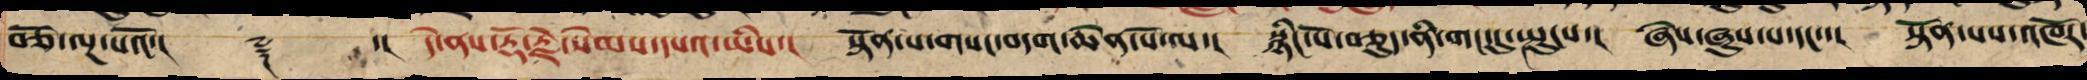བཅོ་ལྔ་པའོ་།། ༈ ་།། དེ་ནས་རྡོ་རྗེ་སེམས་དཔའ་ཡིས་། སྟོན་པ་གསང་བདག་ཆེན་པོ་ལ་། སྙིང་པོ་བཅུད་ནི་གང་དུ་སྤུངས་། ཞེས་ཞུས་པ་དང་་། སྟོན་པས་འཁོར
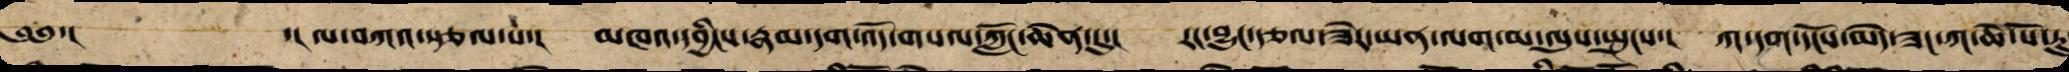༄༅་།   ་།ལ་བཀའ་སྩལ་པ་། མཁའ་དབྱིངས་རྣམ་དག་འོད་གསལ་ཀློང་ཆེན་དུ་། རང་བྱུང་རྩལ་ཟེར་ཡན་ལག་མ་ལུས་སྤུངས་། ཀ་དག་དངོས་མེད་ཟང་ཀ་ཆེན་པོ་རུ
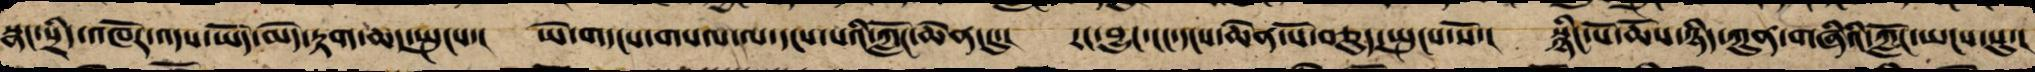སྣང་སྲིད་འཁོར་འདས་ཡོད་མེད་རྟག་ཆད་སྤུངས་། ཡེ་གདངས་གསལ་ལ་དངས་པའི་ཀློང་ཆེན་དུ་། རང་བྱུང་ངང་དངས་ཆེན་པོར་བཅུད་སྤུངས་སོ་། སྙིང་པོ་ཆོས་ཉིད་ཀུན་གཞིའི་ཀློང་ཡངས་སུ་།
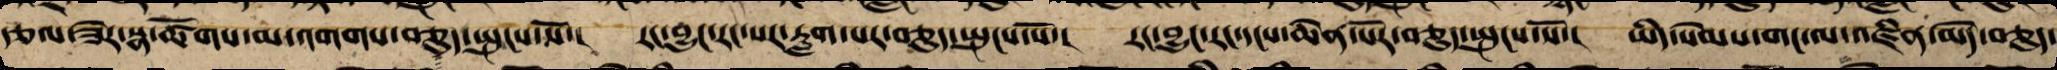རྩལ་ཟེར་སྣ་ཚོགས་མ་འགགས་བཅུད་སྤུངས་སོ་། རང་བྱུང་རང་སར་རླག་པས་བཅུད་སྤངས་སོ་། རང་བྱུང་རང་དངས་ཆེན་པོར་བཅུད་སྤུངས་སོ་། ཡིད་སེམས་གང་ལ་འཛིན་མེད་བཅུད་
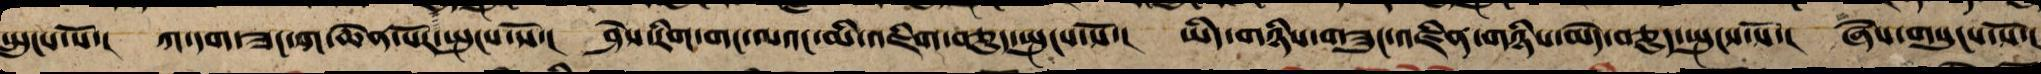སྤུངས་སོ་། ཀ་དག་ཟང་ཀ་ཆེན་པོར་སྤུངས་སོ་། ཤེས་རིག་གང་ལའང་མི་འཇུག་བཅུད་སྤུངས་སོ་། ཡིད་གཉིས་གཟུང་འཛིན་གཉིས་མེད་བཅུད་སྤུངས་སོ་། ཞེས་གསུངས་སོ་།
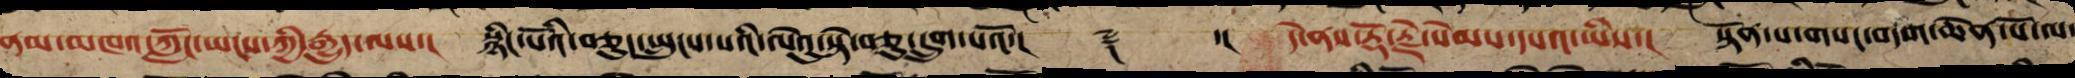ནམ་མཁའ་ཀློང་ཡངས་ཀྱི་རྒྱུད་ལས་། སྙིང་པོའི་བཅུད་སྤུངས་པའི་ལེའུ་སྟེ་བཅུ་དྲུག་པའོ་།། ༈ ་།། དེ་ནས་རྡོ་རྗེ་སེམས་དཔའ་ཡིས་། སྟོན་པ་གསང་བདག་ཆེན་པོ་ལ་
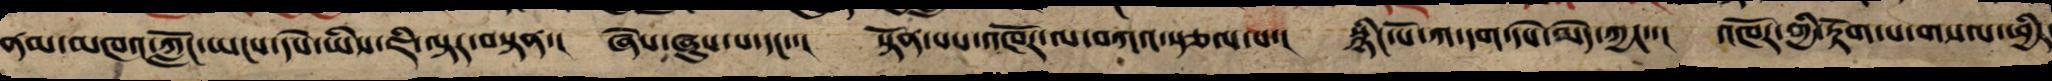ནམ་མཁའ་ཀློང་ཡངས་དཔེ་ཡིས་ཇི་ལྟར་བསྟན་། ཞེས་ཞུས་པ་དང་་། སྟོན་པས་འཁོར་ལ་བཀའ་སྩལ་པ་། སྙིང་པོ་ཀ་དག་དཔེ་མེད་ཀྱང་་། འཁོར་གྱི་རྟོག་པ་གསལ་ཕྱིར
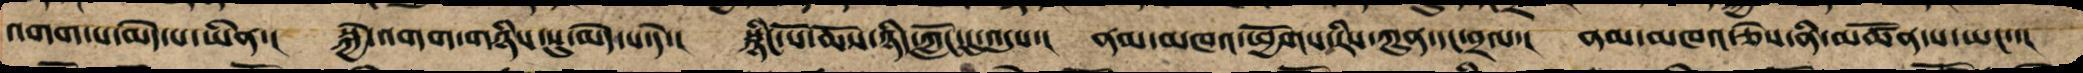འགག་པ་མེད་པ་ཡིན་། སྐྱེ་འགག་གཉིས་སུ་མེད་པ་དེ་། སྙིང་པོ་ཆོས་ཉིད་ཀློང་དུ་འདུས་། ནམ་མཁའ་ཕྱོགས་རིས་ཀུན་དང་བྲལ་། ནམ་མཁའ་ཅེས་ནི་མཚོན་པ་ཡང་་།
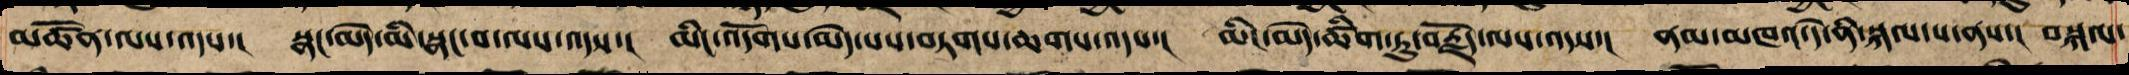མཚོན་ལས་འདས་། སྣང་མེད་མི་སྣང་བ་ལས་འདས་། མིང་འདོགས་མེད་པས་བཏགས་ཆགས་འདས་། མིང་མེད་ཚིག་ཏུ་བརྗོད་ལས་འདས་། ནམ་མཁའ་དེ་ནི་བསྐལ་པ་ནས་། བསྐལ་
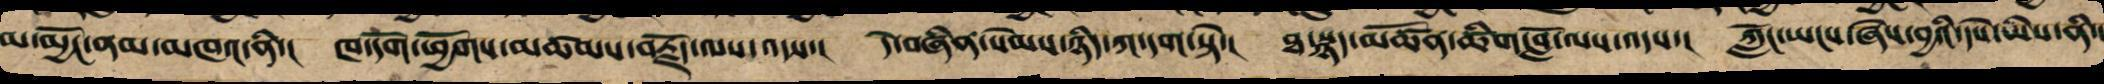མ་མྱོང་ནམ་མཁའ་ནི་། ཁ་དོག་ཕྱོགས་མཚམས་བརྗོད་ལས་འདས་། དེ་བཞིན་སེམས་ཉིད་ཀ་དག་སྟེ་། ཐ་སྙད་མཚོན་ཚིག་བློ་ལས་འདས་། ཀློང་ཡངས་ཞེས་བྱའི་དཔེ་ཡིས་ནི་
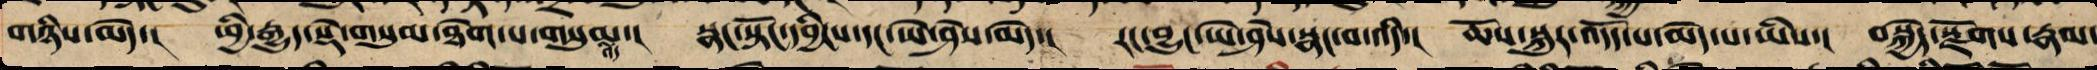གཉིས་མེད་། ཕྱི་རྒྱུད་སྡེ་གསུམ་ཐེག་པ་གསུམ་། སྣང་སྟོང་དབྱིངས་དང་ཡེ་ཤེས་མེད་། རང་བྱུང་ཡེ་ཤེས་སྣང་བ་འདི་། ཆོས་སྐུར་འདོད་པ་མེད་པ་ཡིས་། བསྐྱེད་སྫོགས་རྣམ་
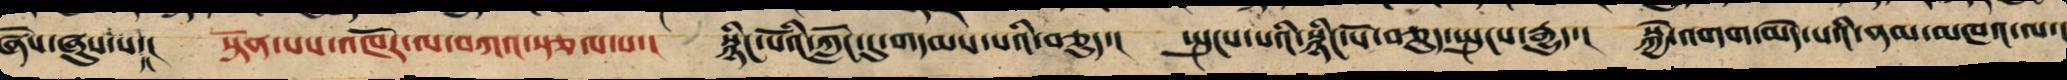ཞེས་ཞུས་པ་དང་། སྟོན་པས་འཁོར་ལ་བཀའ་སྩལ་པ་། སྙིང་པོའི་ཀློང་དུ་གདམས་པའི་བཅུད་། སྤུངས་པའི་སྙིང་པོ་བཅུད་སྤུངས་རྒྱུད་། སྐྱེ་འགག་མེད་པའི་ནམ་མཁའ་ལ་།
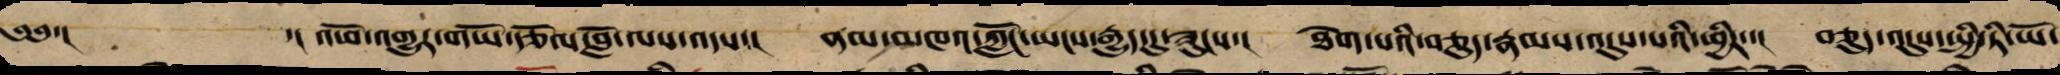༄༅་། ་། འཕོ་འགྱུར་གཡོ་རྩོལ་བློ་ལས་འདས་། ནམ་མཁའ་ཀློང་ཡངས་རྒྱུད་དུ་ཟུངས་། ཐེག་པའི་བཅུད་རྣམས་འདུས་པའི་ཕྱིར་། བཅུད་འདུས་སྤྱི་ཏི་ཡོ་
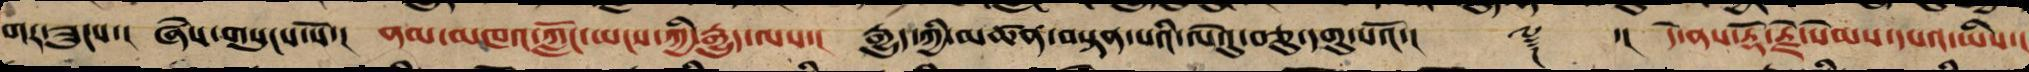གར་ཟུངས་། ཞེས་གསུངས་སོ་། ནམ་མཁའ་ཀློང་ཡངས་ཀྱི་རྒྱུད་ལས་། རྒྱུད་ཀྱི་མཚན་བསྟན་པའི་ལེའུ་སྟེ་བཅུ་དགུ་པའོ་།། ༈ ་།། དེ་ནས་རྡོ་རྗེ་སེམས་དཔའ་ཡིས་།
